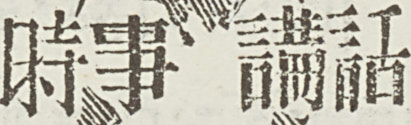時事 講話
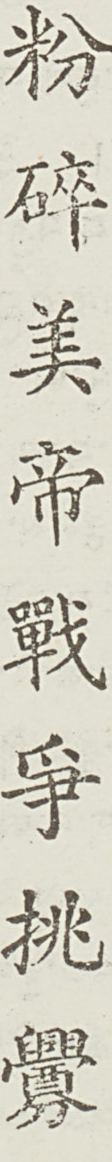粉碎美帝戰爭挑釁
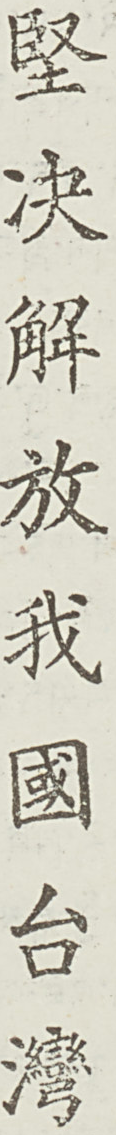堅決解放我國台灣
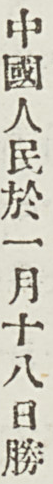中國人民於一月十八日勝
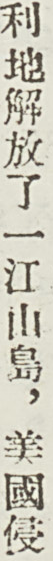利地解放了一江山島，美國侵
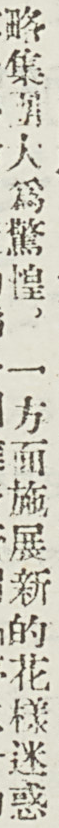略集團大爲驚惶，一方面施展新的花樣迷惑
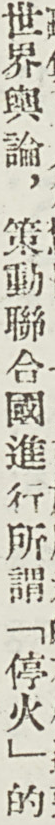世界輿論，策動聯合國進行所謂「停火」的
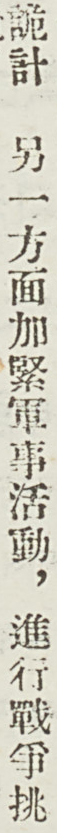詭計，另一方面加緊軍事活動，進行戰爭挑
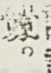釁。
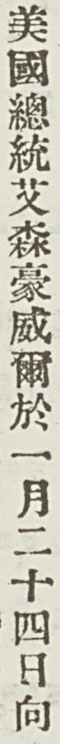美國總統艾森豪威爾於一月二十四日向
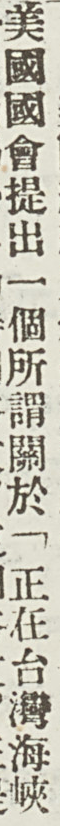美國國會提出一個所謂關於「正在台灣海峽
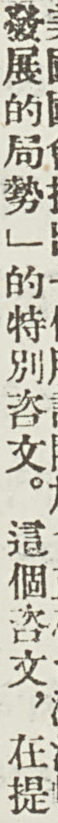發展的局勢」的特別咨文。這個咨文，在提
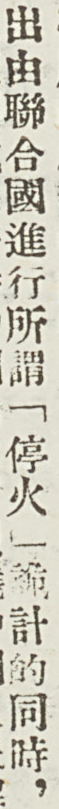出由聯合國進行所謂「停火」詭計的同時，
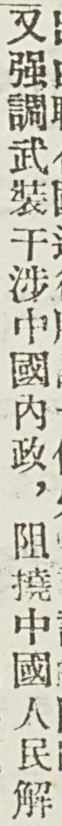又強調武裝干涉中國內政，阻撓中國人民解
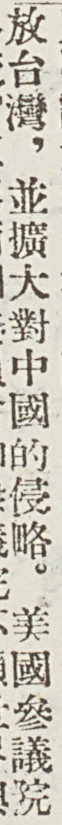放台灣，並擴大對中國的侵略。美國參議院
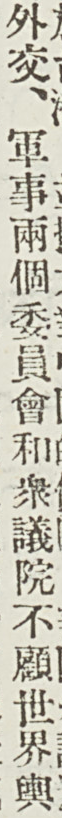外交、軍事兩個委員會和衆議院不顧世界輿
